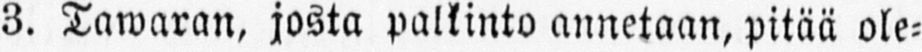3. Tawaran, josta palkinto annetaan, pitää ole-
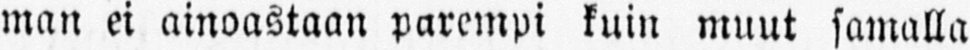man ei ainoastaan parempi kuin muut samalla
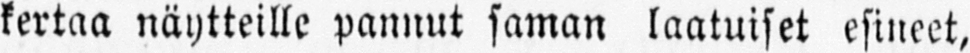kertaa näytteille pannut saman laatuiset esineet,
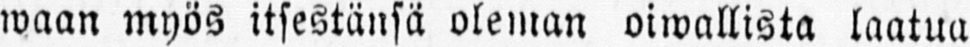waan myös itsestänsä oleman oiwallista laatua
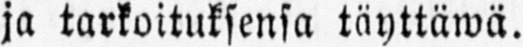ja tarkoituksensa täyttäwä.
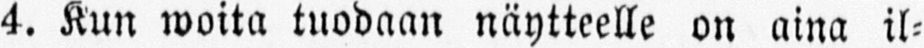4. Kun woita tuodaan näytteelle on aina il-
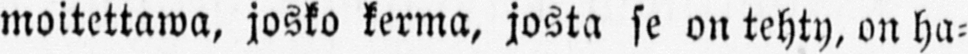moitettawa, josko kerma, josta se on tehty, on ha-
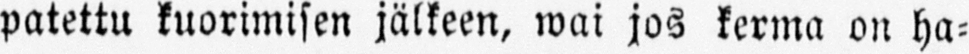patettu kuorimisen jälkeen, wai jos kerma on ha-
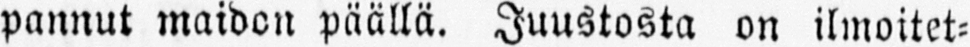pannut maidon päällä. Juustosta on ilmoitet-
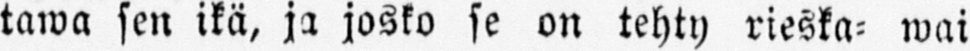tawa sen ikä, ja josko se on tehty rieska- wai
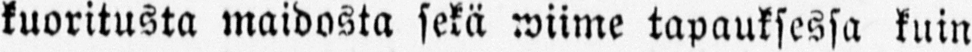kuoritusta maidosta sekä wiime tapauksessa kuin
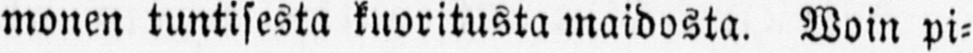monen tuntisesta kuoritusta maidosta. Woin pi-
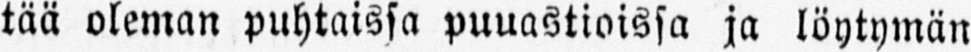tää oleman puhtaissa puuastioissa ja löytymän
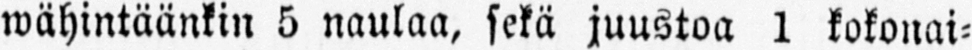wähintäänkin 5 naulaa, sekä juustoa 1 kokonai-
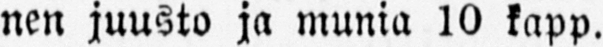nen juusto ja munia 10 kapp.
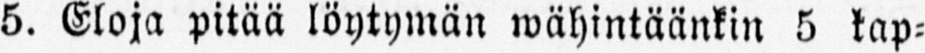5. Eloja pitää löytymän wähintäänkin 5 kap-
